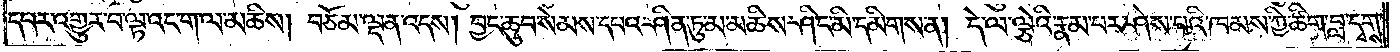དཔར་འགྱུར་བ་ལྟ་འང་ག་ལ་མཆིས། བཅོམ་ལྡན་འདས། བྱང་ཆུབ་སེམས་དཔའ་ཤིན་ཏུ་མ་མཆིས་ཤིང་མི་དམིགས་ན། དེ་ལ་ལྕེའི་རྣམ་པར་ཤེས་པའི་ཁམས་ཀྱི་ཚིག་བླ་དྭགས་
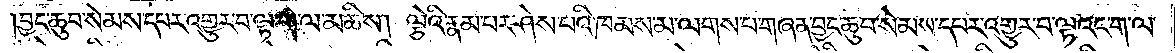བྱང་ཆུབ་སེམས་དཔར་འགྱུར་བ་ལྟ་ག་ལ་མཆིས། ལྕེའི་རྣམ་པར་ཤེས་པའི་ཁམས་མ་ལགས་པ་གཞན་བྱང་ཆུབ་སེམས་དཔར་འགྱུར་བ་ལྟའང་ག་ལ་
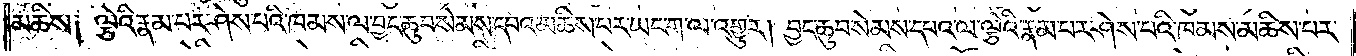མཆིས༑ ལྕེའི་རྣམ་པར་ཤེས་པའི་ཁམས་ལ་བྱང་ཆུབ་སེམས་དཔའ་མཆིས་པར་ཡང་ག་ལ་འགྱུར། བྱང་ཆུབ་སེམས་དཔའ་ལ་ལྕེའི་རྣམ་པར་ཤེས་པའི་ཁམས་མཆིས་པར་
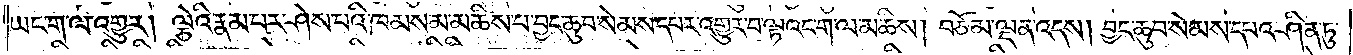ཡང་ག་ལ་འགྱུར། ལྕེའི་རྣམ་པར་ཤེས་པའི་ཁམས་མ་མཆིས་པ་བྱང་ཆུབ་སེམས་དཔར་འགྱུར་བ་ལྟའང་ག་ལ་མཆིས། བཅོམ་ལྡན་འདས། བྱང་ཆུབ་སེམས་དཔའ་ཤིན་ཏུ་
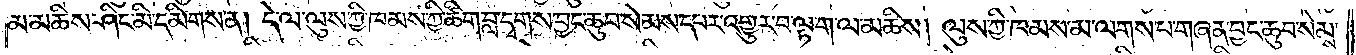མ་མཆིས་ཤིང་མི་དམིགས་ན། དེ་ལ་ལུས་ཀྱི་ཁམས་ཀྱི་ཚིག་བླ་དྭགས་བྱང་ཆུབ་སེམས་དཔར་འགྱུར་བ་ལྟ་ག་ལ་མཆིས། ལུས་ཀྱི་ཁམས་མ་ལགས་པ་གཞན་བྱང་ཆུབ་སེམས་
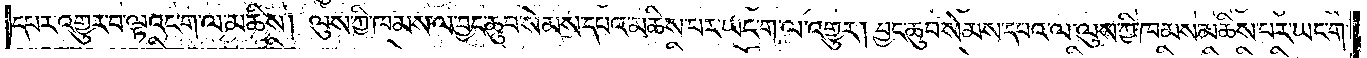དཔར་འགྱུར་བ་ལྟའང་ག་ལ་མཆིས། ལུས་ཀྱི་ཁམས་ལ་བྱང་ཆུབ་སེམས་དཔའ་མཆིས་པར་ཡང་ག་ལ་འགྱུར། བྱང་ཆུབ་སེམས་དཔའ་ལ་ལུས་ཀྱི་ཁམས་མཆིས་པར་ཡང་ག་
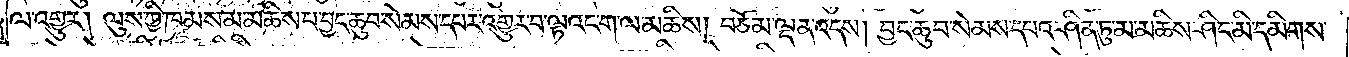ལ་འགྱུར། ལུས་ཀྱི་ཁམས་མ་མཆིས་པ་བྱང་ཆུབ་སེམས་དཔར་འགྱུར་བ་ལྟའང་ག་ལ་མཆིས། བཅོམ་ལྡན་འདས། བྱང་ཆུབ་སེམས་དཔའ་ཤིན་ཏུ་མ་མཆིས་ཤིང་མི་དམིགས་
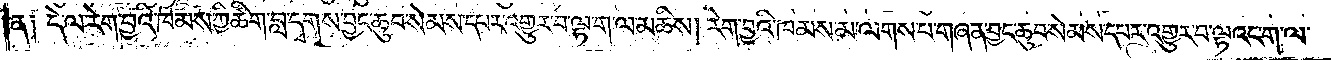ན༑ དེ་ལ་རེག་བྱའི་ཁམས་ཀྱི་ཚིག་བླ་དྭགས་བྱང་ཆུབ་སེམས་དཔར་འགྱུར་བ་ལྟ་ག་ལ་མཆིས། རེག་བྱའི་ཁམས་མ་ལགས་པ་གཞན་བྱང་ཆུབ་སེམས་དཔར་འགྱུར་བ་ལྟའང་ག་ལ་
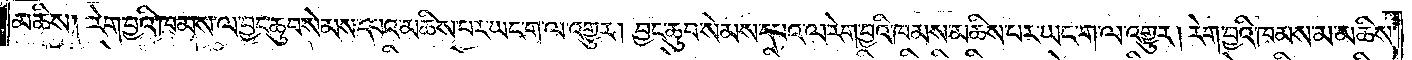མཆིས། རེག་བྱའི་ཁམས་ལ་བྱང་ཆུབ་སེམས་དཔའ་མཆིས་པར་ཡང་ག་ལ་འགྱུར། བྱང་ཆུབ་སེམས་དཔའ་ལ་རེག་བྱའི་ཁམས་མཆིས་པར་ཡང་ག་ལ་འགྱུར། རེག་བྱའི་ཁམས་མ་མཆིས་
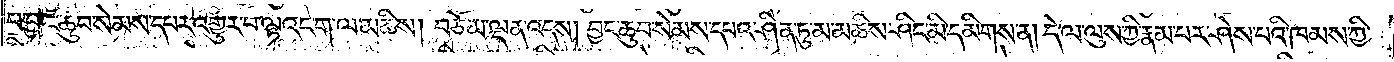པ་བྱང་ཆུབ་སེམས་དཔར་འགྱུར་པ་ལྟའང་ག་ལ་མཆིས། བཅོམ་ལྡན་འདས། བྱང་ཆུབ་སེམས་དཔའ་ཤིན་ཏུ་མ་མཆིས་ཤིང་མི་དམིགས་ན། དེ་ལ་ལུས་ཀྱི་རྣམ་པར་ཤེས་པའི་ཁམས་ཀྱི་
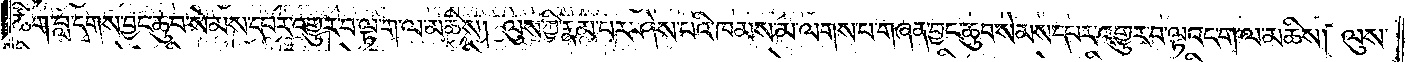ཚིག་བླ་དྭགས་བྱང་ཆུབ་སེམས་དཔར་འགྱུར་བ་ལྟ་ག་ལ་མཆིས། ལུས་ཀྱི་རྣམ་པར་ཤེས་པའི་ཁམས་མ་ལགས་པ་གཞན་བྱང་ཆུབ་སེམས་དཔར་འགྱུར་བ་ལྟའང་ག་ལ་མཆིས། ལུས་
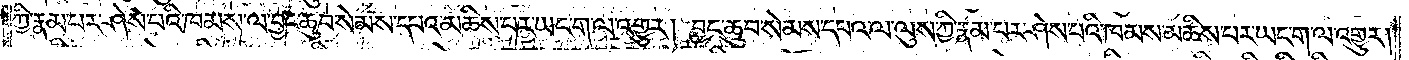ཀྱི་རྣམ་པར་ཤེས་པའི་ཁམས་ལ་བྱང་ཆུབ་སེམས་དཔའ་མཆིས་པར་ཡང་ག་ལ་འགྱུར། བྱང་ཆུབ་སེམས་དཔའ་ལ་ལུས་ཀྱི་རྣམ་པར་ཤེས་པའི་ཁམས་མཆིས་པར་ཡང་ག་ལ་འགྱུར།
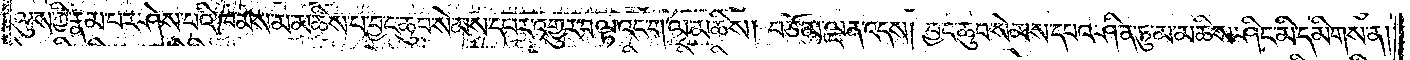ལུས་ཀྱི་རྣམ་པར་ཤེས་པའི་ཁམས་མ་མཆིས་པ་བྱང་ཆུབ་སེམས་དཔར་འགྱུར་བ་ལྟའང་ག་ལ་མཆིས། བཅོམ་ལྡན་འདས། བྱང་ཆུབ་སེམས་དཔའ་ཤིན་ཏུ་མ་མཆིས་ཤིང་མི་དམིགས་ན།
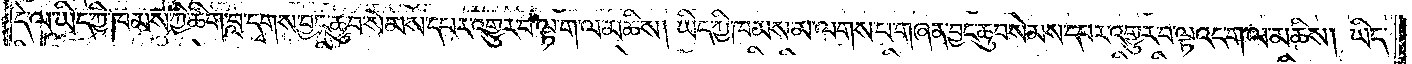དེ་ལ་ཡིད་ཀྱི་ཁམས་ཀྱི་ཚིག་བླ་དྭགས་བྱང་ཆུབ་སེམས་དཔར་འགྱུར་བ་ལྟ་ག་ལ་མཆིས། ཡིད་ཀྱི་ཁམས་མ་ལགས་པ་གཞན་བྱང་ཆུབ་སེམས་དཔར་འགྱུར་བ་ལྟའང་ག་ལ་མཆིས། ཡིད་
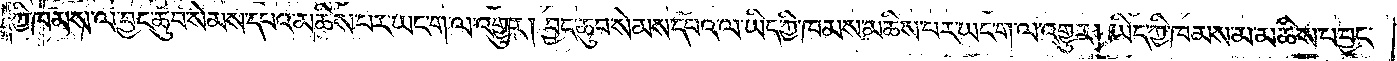ཀྱི་ཁམས་ལ་བྱང་ཆུབ་སེམས་དཔའ་མཆིས་པར་ཡང་ག་ལ་འགྱུར། བྱང་ཆུབ་སེམས་དཔའ་ལ་ཡིད་ཀྱི་ཁམས་མཆིས་པར་ཡང་ག་ལ་འགྱུར། ཡིད་ཀྱི་ཁམས་མ་མཆིས་པ་བྱང་
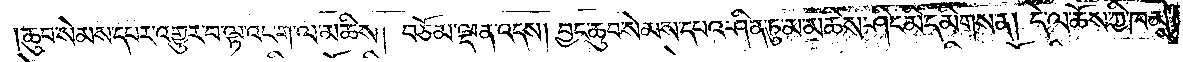ཆུབ་སེམས་དཔར་འགྱུར་བ་ལྟའང་ག་ལ་མཆིས། བཅོམ་ལྡན་འདས། བྱང་ཆུབ་སེམས་དཔའ་ཤིན་ཏུ་མ་མཆིས་ཤིང་མི་དམིགས་ན། དེ་ལ་ཆོས་ཀྱི་ཁམས་
